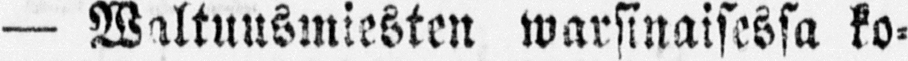— Waltuusmiesten warsinaisessa ko-
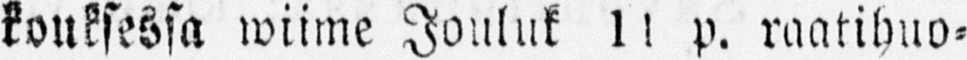kouksessa wiime Jouluk 11 p. raatihuo-
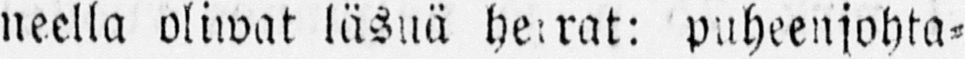neella oliwat läsnä he:rat: puheenjohta-
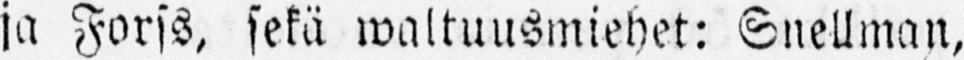ja Forss, sekä waltuusmiehet: Snellman,
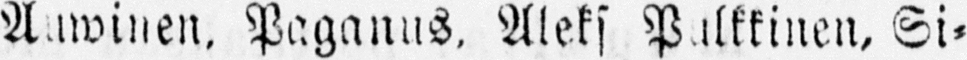Auwinen, Paganus, Aleks Pulkkinen, Si-
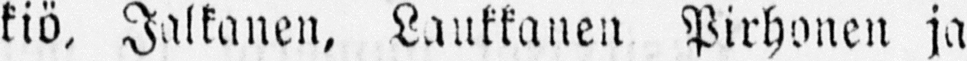kiö, Jalkanen, Laukkanen Pirhonen ja
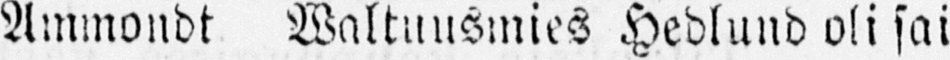Ammondt Waltuusmies Hedlund oli sai-
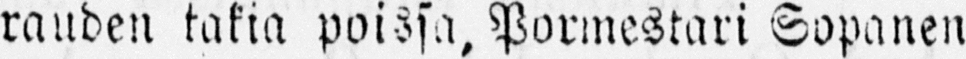rauden takia poissa, Pormestari Sopanen
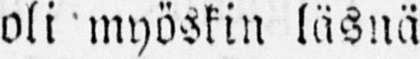oli myöskin läsnä
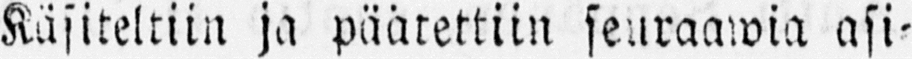Käsiteltiin ja päätettiin seuraawia asi-
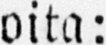oita:
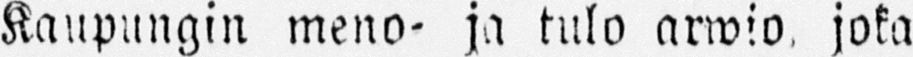Kaupungin meno- ja tulo arwio joka
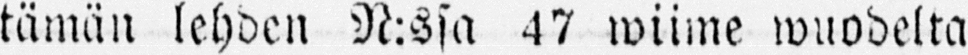tämän lehden N:ssa 47 wiime wuodelta
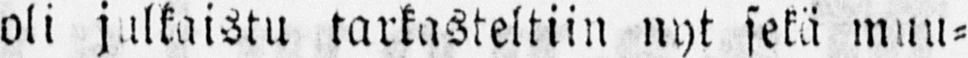oli julkaistu tarkasteltiin nyt sekä muu-
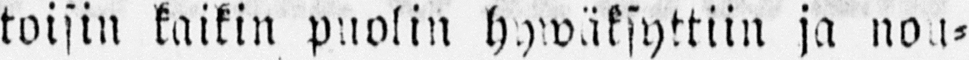toisin kaikin puolin hywäksyttiin ja nou-
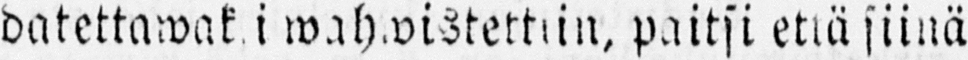datettawaki wahwistettuin, paitsi että siinä
